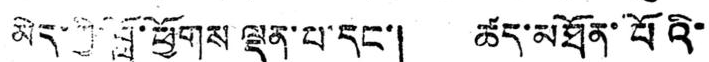མེད་ཀྱི་བློ་ཕྱོགས ལྡན་པ་དང་། ཚད་མཐོན་པོའི་
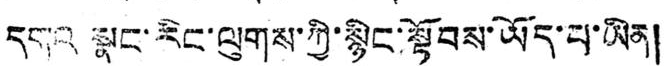དགའ སྣང་རིང་ལུགས་ཀྱི་སྙིང་སྟོབས་ཡོད་པ་ཡིན།
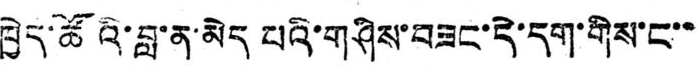ཁྱེད་ཚོའི་བླ་ན་མེད པའི་གཤིས་བཟང་དེ་དག་གིས་ང་་
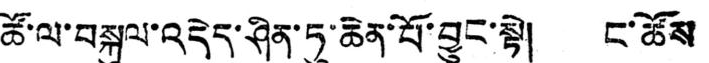ཚོ་ལ་བསྐུལ་འདེད་ཤིན་ཏུ་ཆེན་པོ་བྱུང་སྟེ། ང་ཚོས
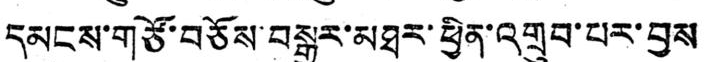དམངས་གཙོ་བཅོས་བསྒྱུར་མཐར་ཕྱིན་འགྲུབ་པར་བྱས
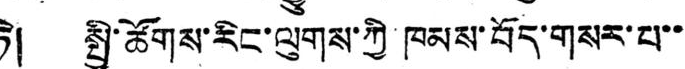ཏེ། སྤྱི་ཚོགས་རིང་ལུགས་ཀྱི་ཁམས་བོད་གསར་པ་་
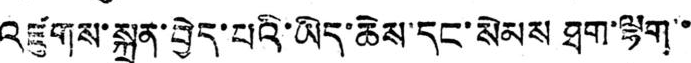འཛུགས་སྐྲུན་བྱེད་པའི་ཡིད་ཆེས་དང་སེམས ཐག་ལྷག་་
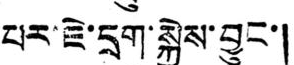པར་ཇེ་དྲག་སྐྱེས་བྱུང་།
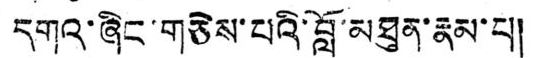དགའ་ཞིང་གཅེས་པའི་བློ་མཐུན་རྣམ་པ།
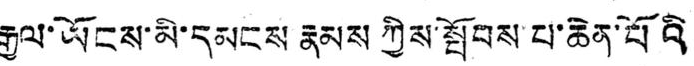རྒྱལ་ཡོངས་མི་དམངས རྣམས ཀྱིས་སྤོབས་པ་ཆེན་པོའི
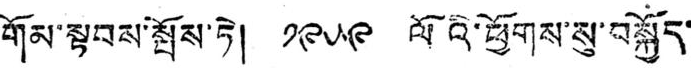གོམ་སྟབས་སྤོས་ཏེ། ༡༩༥༩ ལོའི་ཕྱོགས་སུ་བསྐྱོད་
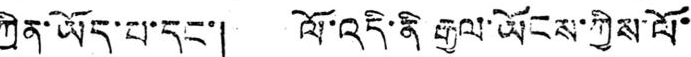ཀྱིན་ཡོད་པ་དང་། ལོ་འདི་ནི རྒྱལ་ཡོངས་ཀྱིས་ལོ་
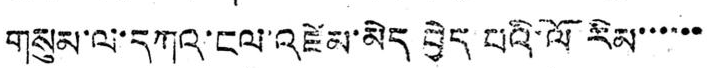གསུམ་ལ་དཀའ་ངལ་འཛེམ་མེད བྱེད པའི་ལོ རིམ་་་་་་
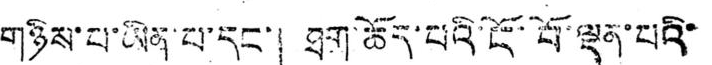གཉིས་པ་ཡིན་པ་དང་། ཐག་ཆོད་པའི་ངོ་བོ་ལྡན་པའི་
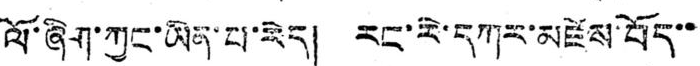ལོ་ཞིག་ཀྱང་ཡིན་པ་རེད། རང་རེ་དཀར་མཛེས་བོད་་
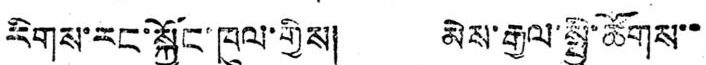རིགས་རང་སྐྱོང་ཁུལ་གྱིས། མེས་རྒྱལ་སྤྱི་ཚོགས་་
